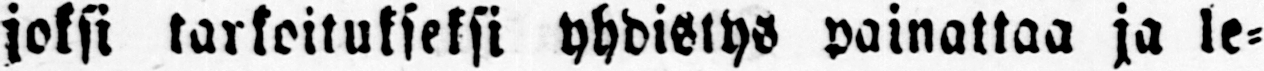joksi tarkoitukseksi yhdistys painattaa ja le-
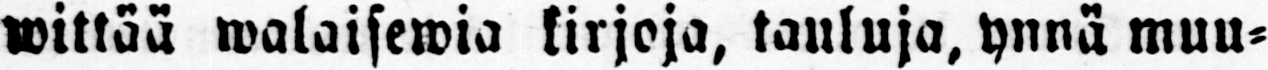wittää walaisewia kirjoja, tauluja, ynnä muu-
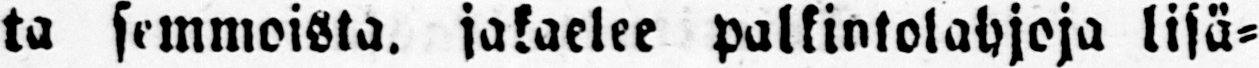ta semmoista, jakaelee palkintotahjoja lisä-
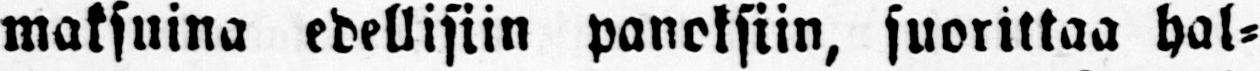maksuina edellisiin panoksiin, suorittaa hal-
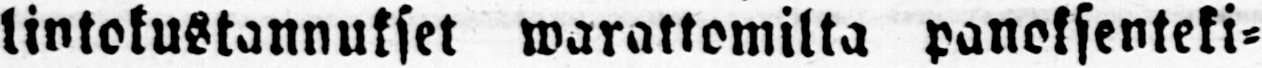lintokustannukset warattomitta panotsenteki-
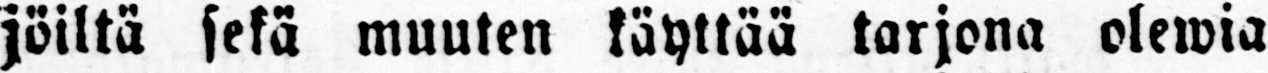jöiltä sekä muuten käyttää tarjona olewia
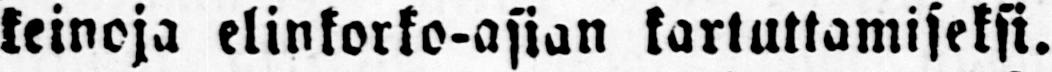keinoja elinkorko-asian kartuttamiseksi.
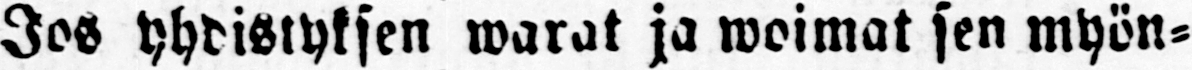Jos yhdistyksen warat ja woimat sen myön-
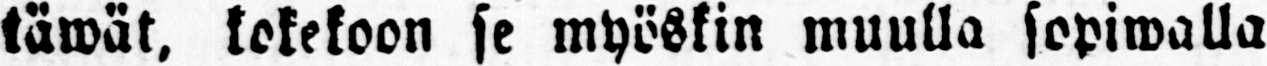täwät, kokekoon se myöskin muulla sopiwalla
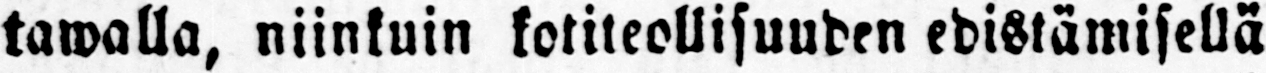lawalla, niinkuin kotiteollisuuden edistämisellä
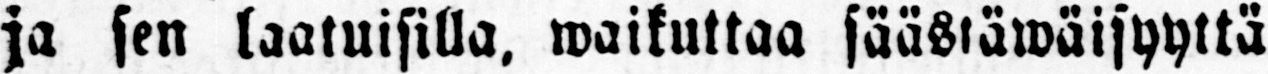ja sen laatuisilla, waikuttaa säästäwäisyyttä
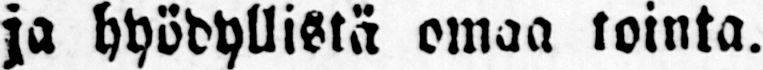ja hyödyllistä omaa tointa.
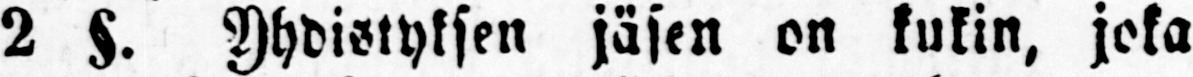2 §. Ydistyksen jäsen on kukin, joka
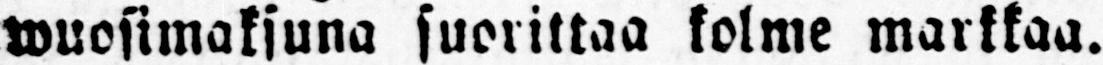wuosimaksuna suorittaa kolme markkaa.
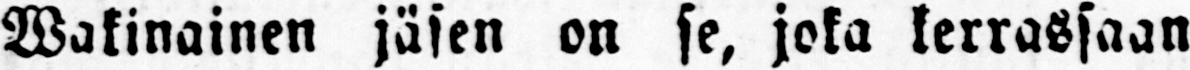Wakinainen jäsen on se, joka kerrassaan
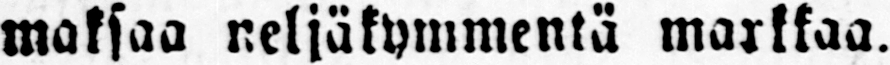maksaa neljäkymmentä markkaa.
